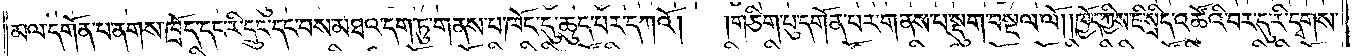མལ་དགོན་པ་ནགས་ཁྲོད་དང་རི་དྲུང་དང་བས་མཐའ་དག་ཏུ་གནས་པ་ཁོང་དུ་ཆུད་པར་དཀའོ།  །གཅིག་པུ་དགོན་པར་གནས་པ་སྡུག་བསྔལ་ལོ། །ཁྱོད་ཀྱིས་ཇི་སྲིད་འཚོའི་བར་དུ་རི་དྭགས་
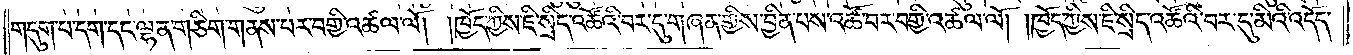གདུག་པ་དག་དང་ལྷན་ཅིག་གནས་པར་བགྱི་འཚལ་ལོ། །ཁྱོད་ཀྱིས་ཇི་སྲིད་འཚོའི་བར་དུ་གཞན་གྱིས་བྱིན་པས་འཚོ་བར་བགྱི་འཚལ་ལོ། །ཁྱོད་ཀྱིས་ཇི་སྲིད་འཚོའི་བར་དུ་མིའི་འདོད་
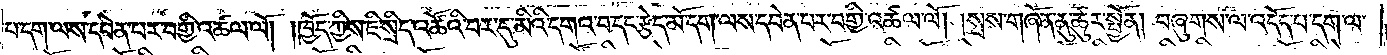པ་དག་ལས་དབེན་པར་བགྱི་འཚལ་ལོ། །ཁྱོད་ཀྱིས་ཇི་སྲིད་འཚོའི་བར་དུ་མིའི་དགའ་བ་དང་རྩེད་མོ་དག་ལས་དབེན་པར་བགྱི་འཚལ་ལོ། །སྲས་གཞོན་ནུ་ཚུར་སྤྱོན། བཞུགས་ལ་འདོད་པ་དག་ལ་
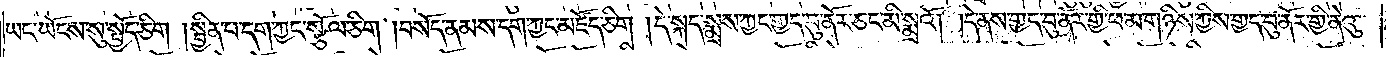ཡང་ཡོངས་སུ་སྤྱོད་ཅིག །སྦྱིན་པ་དག་ཀྱང་སྩོལ་ཅིག །བསོད་ནམས་དག་ཀྱང་མཛོད་ཅིག །དེ་སྐད་སྨྲས་ཀྱང་གྱད་བུ་ནོར་ཅང་མི་སྨྲའོ། །དེ་ནས་གྱད་བུ་ནོར་གྱི་ཕ་མ་གཉིས་ཀྱིས་གྱད་བུ་ནོར་གྱི་ནེའུ་
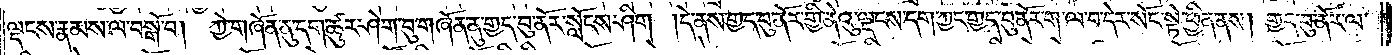ལྡངས་རྣམས་ལ་བསྒོ་བ། ཀྱེ་གཞོན་ནུ་དག་ཚུར་ཤེག་བུ་གཞོན་ནུ་གྱད་བུ་ནོར་སློངས་ཤིག །དེ་ནས་གྱད་བུ་ནོར་གྱི་ནེའུ་ལྡངས་དག་ཀྱང་གྱད་བུ་ནོར་ག་ལ་བ་དེར་སོང་སྟེ་ཕྱིན་ནས། གྱད་བུ་ནོར་ལ་
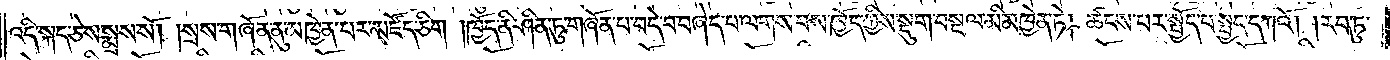འདི་སྐད་ཅེས་སྨྲས་སོ། །སྲས་གཞོན་ནུ་མཁྱེན་པར་མཛོད་ཅིག །ཁྱོད་ནི་ཤིན་ཏུ་གཞོན་པ་བདེ་བ་བཞེད་པ་ལགས་པས་ཁྱོད་ཀྱིས་སྡུག་བསྔལ་མི་མཁྱེན་ཏེ། ཚངས་པར་སྤྱོད་པ་སྤྱད་དཀའོ། །རབ་ཏུ་
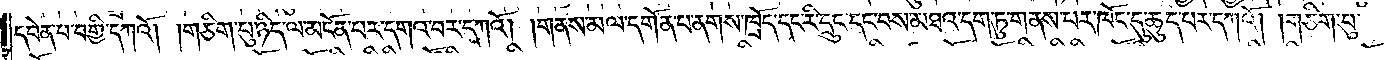དབེན་པ་བགྱི་དཀའོ། །གཅིག་པུ་ཉིད་ལ་མངོན་པར་དགའ་བར་དཀའོ། །གནས་མལ་དགོན་པ་ནགས་ཁྲོད་དང་རི་དྲུང་དང་བས་མཐའ་དག་ཏུ་གནས་པར་ཁོང་དུ་ཆུད་པར་དཀའོ། །གཅིག་པུ་
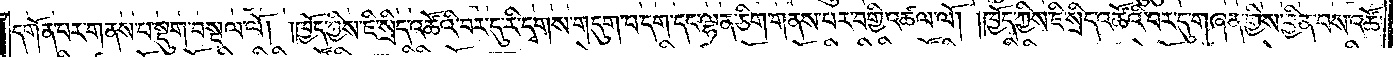དགོན་པར་གནས་པ་སྡུག་བསྔལ་ལོ། །ཁྱོད་ཀྱིས་ཇི་སྲིད་འཚོའི་བར་དུ་རི་དྭགས་གདུག་པ་དག་དང་ལྷན་ཅིག་གནས་པར་བགྱི་འཚལ་ལོ། །ཁྱོད་ཀྱིས་ཇི་སྲིད་འཚོའི་བར་དུ་གཞན་གྱིས་བྱིན་པས་འཚོ་
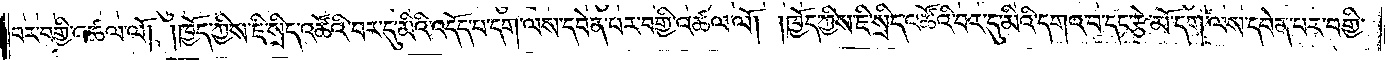བར་བགྱི་འཚལ་ལོ། །ཁྱོད་ཀྱིས་ཇི་སྲིད་འཚོའི་བར་དུ་མིའི་འདོད་པ་དག་ལས་དབེན་པར་བགྱི་འཚལ་ལོ། །ཁྱོད་ཀྱིས་ཇི་སྲིད་འཚོའི་བར་དུ་མིའི་དགའ་བ་དང་རྩེ་མོ་དག་ལས་དབེན་པར་བགྱི་
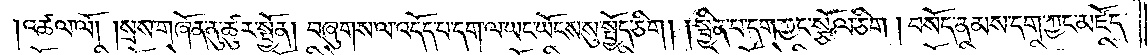།འཚལ་ལོ། །སྲས་གཞོན་ནུ་ཚུར་སྤྱོན། བཞུགས་ལ་འདོད་པ་དག་ལ་ཡང་ཡོངས་སུ་སྤྱོད་ཅིག། །སྦྱིན་པ་དག་ཀྱང་སྩོལ་ཅིག །བསོད་ནམས་དག་ཀྱང་མཛོད་
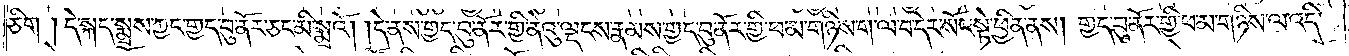ཅིག །དེ་སྐད་སྨྲས་ཀྱང་གྱད་བུ་ནོར་ཅང་མི་སྨྲའོ། །དེ་ནས་གྱད་བུ་ནོར་གྱི་ནེའུ་ལྡངས་རྣམས་གྱད་བུ་ནོར་གྱི་ཕ་མ་གཉིས་ག་ལ་བ་དེར་སོང་སྟེ་ཕྱིན་ནས། གྱད་བུ་ནོར་གྱི་ཕ་མ་གཉིས་ལ་འདི་
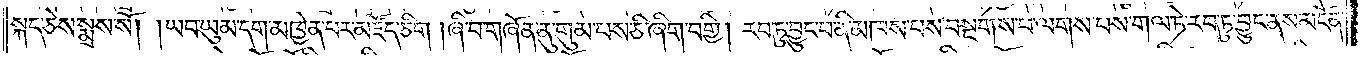སྐད་ཅེས་སྨྲས་སོ། །ཡབ་ཡུམ་དག་མཁྱེན་པར་མཛོད་ཅིག །ཞི་བ་གཞོན་ནུ་གུམ་པས་ཅི་ཞིག་བགྱི། རབ་ཏུ་བྱུང་བ་ནི་མཁས་པས་བསྔགས་པ་ལགས་པས་གལ་ཏེ་རབ་ཏུ་བྱུང་ནས་མངོན་
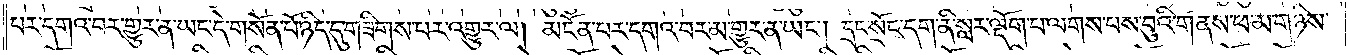པར་དགའ་བར་གྱུར་ན་ཡང་དེ་གསོན་པོ་ཉིད་དུ་གཟིགས་པར་འགྱུར་ལ། མངོན་པར་དགའ་བར་མ་གྱུར་ན་ཡང༌། དྲང་སྲོང་དག་ནི་སླར་ལྡོག་པ་ལགས་པས་བུའི་གནས་ཕ་མ་གཉིས་
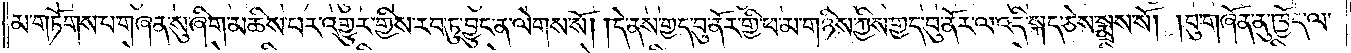མ་གཏོགས་པ་གཞན་སུ་ཞིག་མཆིས་པར་འགྱུར་གྱིས་རབ་ཏུ་བྱུང་ན་ལེགས་སོ། །དེ་ནས་གྱད་བུ་ནོར་གྱི་ཕ་མ་གཉིས་ཀྱིས་གྱད་བུ་ནོར་ལ་འདི་སྐད་ཅེས་སྨྲས་སོ། །བུ་གཞོན་ནུ་ཁྱོད་ལ་
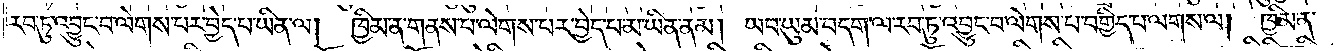རབ་ཏུ་འབྱུང་བ་ལེགས་པར་བྱེད་པ་ཡིན་ལ།  ཁྱིམ་ན་གནས་པ་ལེགས་པར་བྱེད་པ་མ་ཡིན་ནམ། ཡབ་ཡུམ་བདག་ལ་རབ་ཏུ་འབྱུང་བ་ལེགས་པ་བགྱིད་པ་ལགས་ལ། ཁྱིམ་ན་
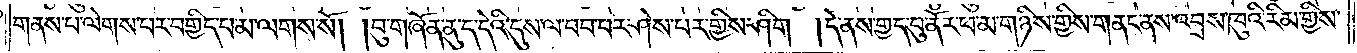གནས་པ་ལེགས་པར་བགྱིད་པ་མ་ལགས་སོ། །བུ་གཞོན་ནུ་ད་དེའི་དུས་ལ་བབ་པར་ཤེས་པར་གྱིས་ཤིག །དེ་ནས་གྱད་བུ་ནོར་ཕ་མ་གཉིས་གྱིས་གནང་ནས་འབྲས་ཁུའི་རིམ་གྱིས་
